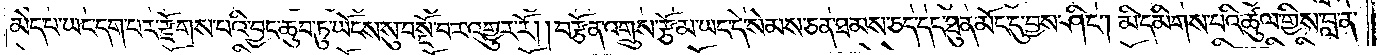མེད་པ་ཡང་དག་པར་རྫོགས་པའི་བྱང་ཆུབ་ཏུ་ཡོངས་སུ་སྔོ་བར་འགྱུར་རོ། །བརྩོན་འགྲུས་རྩོམ་ཡང་དེ་སེམས་ཅན་ཐམས་ཅད་དང་ཐུན་མོང་དུ་བྱས་ཤིང༌། མི་དམིགས་པའི་ཚུལ་གྱིས་བླ་ན་
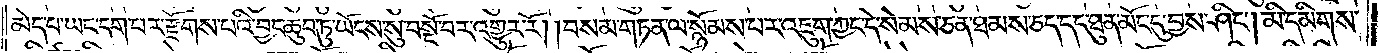མེད་པ་ཡང་དག་པར་རྫོགས་པའི་བྱང་ཆུབ་ཏུ་ཡོངས་སུ་སྔོ་བར་འགྱུར་རོ། །བསམ་གཏན་ལ་སྙོམས་པར་འཇུག་ཀྱང་དེ་སེམས་ཅན་ཐམས་ཅད་དང་ཐུན་མོང་དུ་བྱས་ཤིང༌། མི་དམིགས་
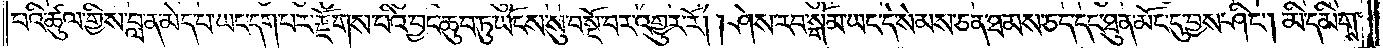པའི་ཚུལ་གྱིས་བླ་ན་མེད་པ་ཡང་དག་པར་རྫོགས་པའི་བྱང་ཆུབ་ཏུ་ཡོངས་སུ་སྔོ་བར་འགྱུར་རོ། །ཤེས་རབ་སྒོམ་ཡང་དེ་སེམས་ཅན་ཐམས་ཅད་དང་ཐུན་མོང་དུ་བྱས་ཤིང༌། མི་དམིགས་
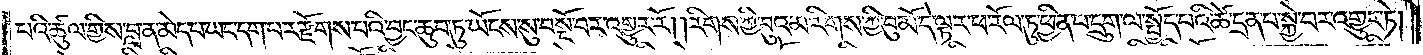པའི་ཚུལ་གྱིས་བླ་ན་མེད་པ་ཡང་དག་པར་རྫོགས་པའི་བྱང་ཆུབ་ཏུ་ཡོངས་སུ་སྔོ་བར་འགྱུར་རོ། །རིགས་ཀྱི་བུའམ་རིགས་ཀྱི་བུ་མོ་དེ་ལྟར་ཕ་རོལ་ཏུ་ཕྱིན་པ་དྲུག་ལ་སྤྱོད་པའི་ཚེ་དྲན་པ་སྐྱེ་བར་འགྱུར་ཏེ།
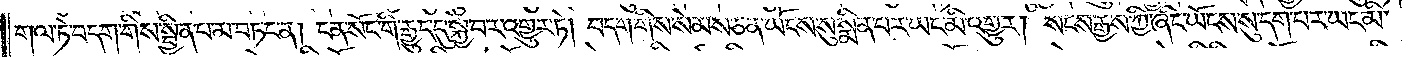གལ་ཏེ་བདག་གིས་སྦྱིན་པ་མ་བཏང་ན། ངན་སོང་གི་རྒྱུད་དུ་སྐྱེ་བར་འགྱུར་ཏེ། བདག་གིས་སེམས་ཅན་ཡོངས་སུ་སྨིན་པར་ཡང་མི་འགྱུར། སངས་རྒྱས་ཀྱི་ཞིང་ཡོངས་སུ་དག་པར་ཡང་མི་
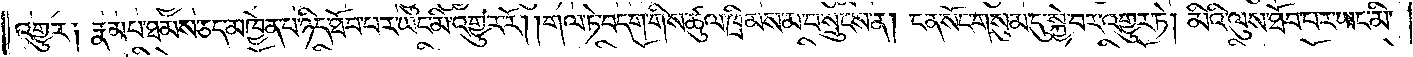འགྱུར། རྣམ་པ་ཐམས་ཅད་མཁྱེན་པ་ཉིད་ཐོབ་པར་ཡང་མི་འགྱུར་རོ། །གལ་ཏེ་བདག་གིས་ཚུལ་ཁྲིམས་མ་བསྲུངས་ན། ངན་སོང་གསུམ་དུ་སྐྱེ་བར་འགྱུར་ཏེ། མིའི་ལུས་ཐོབ་པར་ཡང་མི་
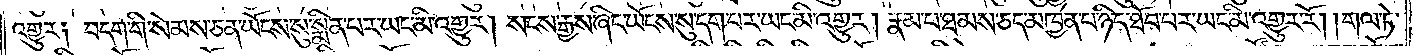འགྱུར། བདག་གིས་སེམས་ཅན་ཡོངས་སུ་སྨིན་པར་ཡང་མི་འགྱུར། སངས་རྒྱས་ཀྱི་ཞིང་ཡོངས་སུ་དག་པར་ཡང་མི་འགྱུར། རྣམ་པ་ཐམས་ཅད་མཁྱེན་པ་ཉིད་ཐོབ་པར་ཡང་མི་འགྱུར་རོ། །གལ་ཏེ་
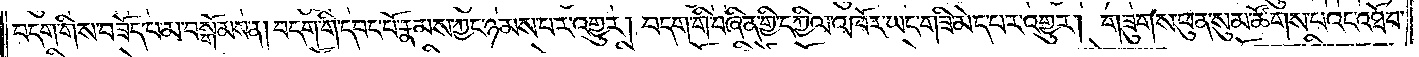བདག་གིས་བཟོད་པ་མ་བསྒོམས་ན། བདག་གི་དབང་པོ་རྣམས་ཀྱང་ཉམས་པར་འགྱུར། བདག་གི་བཞིན་གྱི་དཀྱིལ་འཁོར་ཡང་གཟི་མེད་པར་འགྱུར། གཟུགས་ཕུན་སུམ་ཚོགས་པའང་འཐོབ་
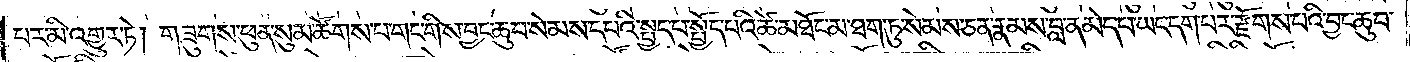པར་མི་འགྱུར་ཏེ། གཟུགས་ཕུན་སུམ་ཚོགས་པ་གང་གིས་བྱང་ཆུབ་སེམས་དཔའི་སྤྱད་པ་སྤྱོད་པའི་ཚེ་མཐོང་མ་ཐག་ཏུ་སེམས་ཅན་རྣམས་བླ་ན་མེད་པ་ཡང་དག་པར་རྫོགས་པའི་བྱང་ཆུབ་
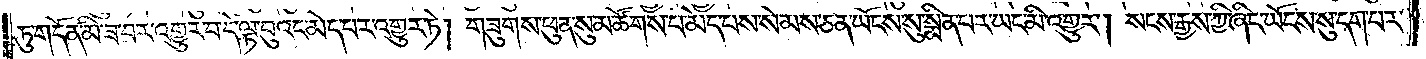ཏུ་གདོན་མི་ཟ་བར་འགྱུར་བ་དེ་ལྟ་བུའང་མེད་པར་འགྱུར་ཏེ། གཟུགས་ཕུན་སུམ་ཚོགས་པ་མེད་པས་སེམས་ཅན་ཡོངས་སུ་སྨིན་པར་ཡང་མི་འགྱུར། སངས་རྒྱས་ཀྱི་ཞིང་ཡོངས་སུ་དག་པར་
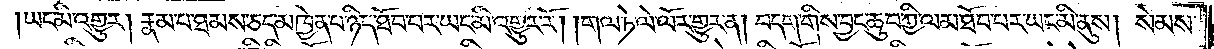ཡང་མི་འགྱུར། རྣམ་པ་ཐམས་ཅད་མཁྱེན་པ་ཉིད་ཐོབ་པར་ཡང་མི་འགྱུར་རོ། །གལ་ཏེ་ལེ་ལོར་གྱུར་ན། བདག་གིས་བྱང་ཆུབ་ཀྱི་ལམ་ཐོབ་པར་ཡང་མི་ནུས། སེམས་
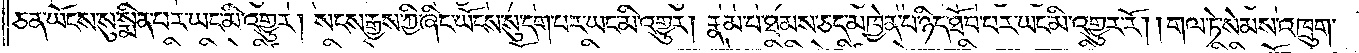ཅན་ཡོངས་སུ་སྨིན་པར་ཡང་མི་འགྱུར། སངས་རྒྱས་ཀྱི་ཞིང་ཡོངས་སུ་དག་པར་ཡང་མི་འགྱུར། རྣམ་པ་ཐམས་ཅད་མཁྱེན་པ་ཉིད་ཐོབ་པར་ཡང་མི་འགྱུར་རོ། །གལ་ཏེ་སེམས་འཁྲུག་
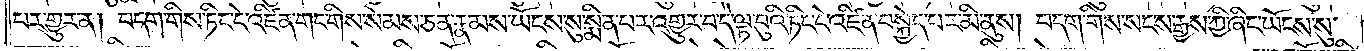པར་གྱུར་ན། བདག་གིས་ཏིང་ངེ་འཛིན་གང་གིས་སེམས་ཅན་རྣམས་ཡོངས་སུ་སྨིན་པར་འགྱུར་བ་དེ་ལྟ་བུའི་ཏིང་ངེ་འཛིན་བསྐྱེད་པར་མི་ནུས། བདག་གིས་སངས་རྒྱས་ཀྱི་ཞིང་ཡོངས་སུ་
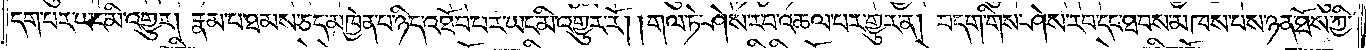དག་པར་ཡང་མི་འགྱུར། རྣམ་པ་ཐམས་ཅད་མཁྱེན་པ་ཉིད་འཐོབ་པར་ཡང་མི་འགྱུར་རོ། །གལ་ཏེ་ཤེས་རབ་འཆལ་བར་གྱུར་ན། བདག་གིས་ཤེས་རབ་དང་ཐབས་མཁས་པས་ཉན་ཐོས་ཀྱི་
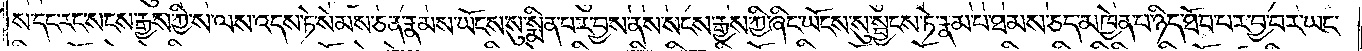ས་དང་རང་སངས་རྒྱས་ཀྱི་ས་ལས་འདས་ཏེ་སེམས་ཅན་རྣམས་ཡོངས་སུ་སྨིན་པར་བྱས་ནས་སངས་རྒྱས་ཀྱི་ཞིང་ཡོངས་སུ་སྦྱངས་ཏེ་རྣམ་པ་ཐམས་ཅད་མཁྱེན་པ་ཉིད་ཐོབ་བར་བྱ་བར་ཡང་
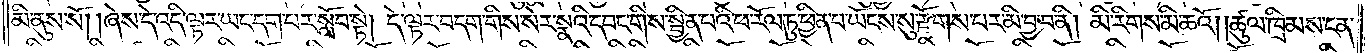མི་ནུས་སོ། །ཞེས་དེ་འདི་ལྟར་ཡང་དག་པར་སློབ་སྟེ། དེ་ལྟར་བདག་གིས་སེར་སྣའི་དབང་གིས་སྦྱིན་པའི་ཕ་རོལ་ཏུ་ཕྱིན་པ་ཡོངས་སུ་རྫོགས་པར་མི་བྱ་བ་ནི། མི་རིགས་མི་ཆའོ། །ཚུལ་ཁྲིམས་ངན་
